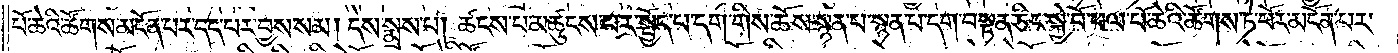པོ་ཆེའི་ཚོགས་མངོན་པར་དད་པར་བྱས་སམ། དེས་སྨྲས་པ། ཚངས་པ་མཚུངས་པར་སྤྱོད་པ་དག་གིས་ཆོས་སྙན་པ་སྙན་པ་དག་བསྟན་ཅིང་སྐྱེ་བོ་ཕལ་པོ་ཆེའི་ཚོགས་ཏེ་པོར་མངོན་པར་
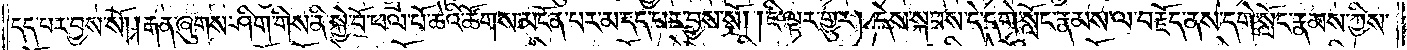དད་པར་བྱས་སོ། །རྒན་ཞུགས་ཤིག་གིས་ནི་སྐྱེ་བོ་ཕལ་པོ་ཆེའི་ཚོགས་མངོན་པར་མ་དད་པར་བྱས་སོ། །ཇི་ལྟར་གྱུར། དེས་སྐབས་དེ་དགེ་སློང་རྣམས་ལ་བརྗོད་ནས་དགེ་སློང་རྣམས་ཀྱིས་
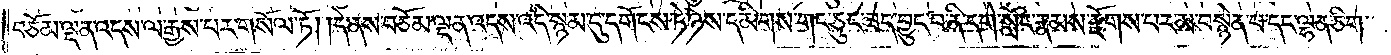བཅོམ་ལྡན་འདས་ལ་རྒྱས་པར་གསོལ་ཏོ། །དེ་ནས་བཅོམ་ལྡན་འདས་འདི་སྙམ་དུ་དགོངས་ཏེ་ཉེས་དམིགས་གང་ཅུང་ཟད་བྱུང་བ་ནི་དགེ་སློང་རྣམས་རྫོགས་པར་མ་བསྙེན་པ་དང་ལྷན་ཅིག་
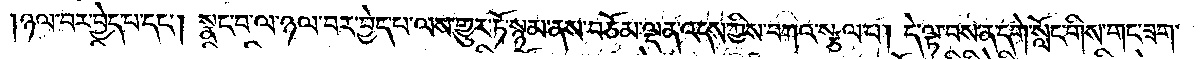ཉལ་བར་བྱེད་པ་དང༌། སྣང་བ་ལ་ཉལ་བར་བྱེད་པ་ལས་གྱུར་ཏོ་སྙམ་ནས་བཅོམ་ལྡན་འདས་ཀྱིས་བཀའ་སྩལ་པ། དེ་ལྟ་བས་ན་དགེ་སློང་གིས་གང་ཟག་
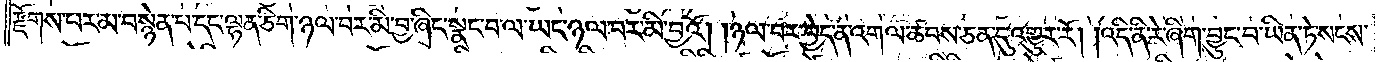རྫོགས་པར་མ་བསྙེན་པ་དང་ལྷན་ཅིག་ཉལ་བར་མི་བྱ་ཞིང་སྣང་བ་ལ་ཡང་ཉལ་བར་མི་བྱའོ། །ཉལ་བར་བྱེད་ན་འགལ་ཚབས་ཅན་དུ་འགྱུར་རོ། །འདི་ནི་རེ་ཞིག་བྱུང་བ་ཡིན་ཏེ་སངས་
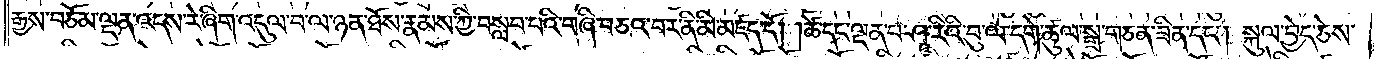རྒྱས་བཅོམ་ལྡན་འདས་རེ་ཞིག་འདུལ་བ་ལ་ཉན་ཐོས་རྣམས་ཀྱི་བསླབ་པའི་གཞི་བཅའ་བར་ནི་མི་མཛད་དོ། །ཚེ་དང་ལྡན་པ་ཤཱ་རིའི་བུ་ལ་དགེ་ཚུལ་སྒྲ་གཅན་ཟིན་དང༌། སྐུལ་བྱེད་ཅེས་
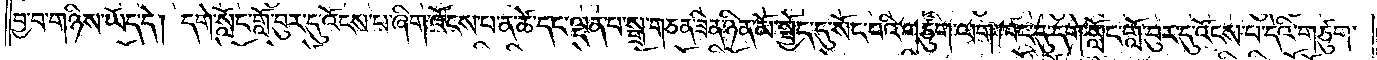བྱ་བ་གཉིས་ཡོད་དེ། དགེ་སློང་གློ་བུར་དུ་འོངས་པ་ཞིག་འོངས་པ་ན་ཚེ་དང་ལྡན་པ་སྒྲ་གཅན་ཟིན་ཉིན་མོ་སྤྱོད་དུ་སོང་བའི་གཙུག་ལག་ཁང་དུ་དགེ་སློང་གློ་བུར་དུ་འོངས་པ་དེའི་གཙུག་
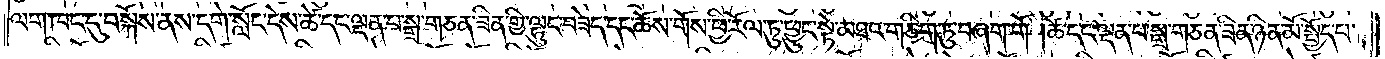ལག་ཁང་དུ་བསྐོས་ནས་དགེ་སློང་དེས་ཚེ་དང་ལྡན་པ་སྒྲ་གཅན་ཟིན་གྱི་ལྷུང་བཟེད་དང་ཆོས་གོས་ཕྱི་རོལ་ཏུ་ཕྱུང་སྟེ་མཐའ་གཅིག་ཏུ་བཞག་གོ །ཚེ་དང་ལྡན་པ་སྒྲ་གཅན་ཟིན་ཉིན་མོ་སྤྱོད་པ་
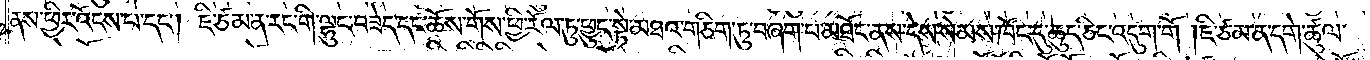ནས་ཕྱིར་འོངས་པ་དང༌། ཇི་ཙམ་ན་རང་གི་ལྷུང་བཟེད་དང་ཆོས་གོས་ཕྱི་རོལ་ཏུ་ཕྱུང་སྟེ་མཐའ་གཅིག་ཏུ་བཞག་པ་མཐོང་ནས་དེས་སེམས་ཁོང་དུ་ཆུད་ཅིང་འདུག་གོ །ཇི་ཙམ་ན་དགེ་ཚུལ་
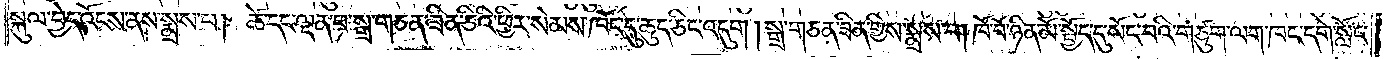སྐུལ་བྱེད་འོངས་ནས་སྨྲས་པ། ཚེ་དང་ལྡན་པ་སྒྲ་གཅན་ཟིན་ཅིའི་ཕྱིར་སེམས་ཁོང་དུ་ཆུད་ཅིང་འདུག །སྒྲ་གཅན་ཟིན་གྱིས་སྨྲས་པ། ཁོ་བོ་ཉིན་མོ་སྤྱོད་དུ་སོང་བའི་གཙུག་ལག་ཁང་དགེ་སློང་
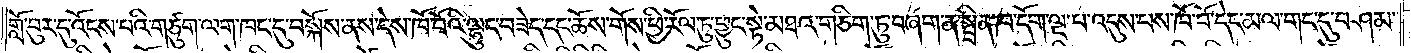གློ་བུར་དུ་འོངས་པའི་གཙུག་ལག་ཁང་དུ་བསྐོས་ནས་དེས་ཁོ་བོའི་ལྷུང་བཟེད་དང་ཆོས་གོས་ཕྱི་རོལ་ཏུ་ཕྱུང་སྟེ་མཐའ་གཅིག་ཏུ་བཞག་ན་སྤྲིན་ཁ་དོག་ལྔ་པ་འདུས་པས་ཁོ་བོ་དེང་མལ་གང་དུ་བཤམ་
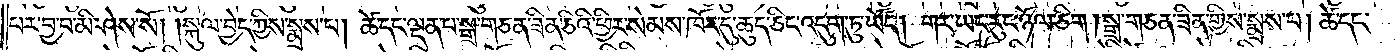པར་བྱ་བ་མི་ཤེས་སོ། །སྐུལ་བྱེད་ཀྱིས་སྨྲས་པ། ཚེ་དང་ལྡན་པ་སྒྲ་གཅན་ཟིན་ཅིའི་ཕྱིར་སེམས་ཁོང་དུ་ཆུད་ཅིང་འདུག་ཏུ་ཡོད། གར་ཡང་རུང་ཉོལ་ཅིག །སྒྲ་གཅན་ཟིན་གྱིས་སྨྲས་པ། ཚེ་དང་
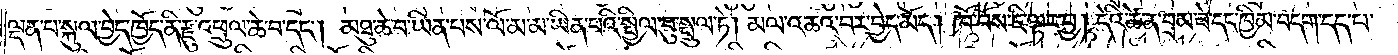ལྡན་པ་སྐུལ་བྱེད་ཁྱོད་ནི་རྫུ་འཕྲུལ་ཆེ་བ་དང༌། མཐུ་ཆེ་བ་ཡིན་པས་ལོ་མ་མ་ཡིན་པའི་སྤྱིལ་བུ་སྤྲུལ་ཏེ། མལ་འཆའ་བར་བྱེད་མོད། ཁོ་བོས་ཇི་ལྟར་བྱ། དེའི་ཚེ་ན་བྲམ་ཟེ་དང་ཁྱིམ་བདག་དད་པ་
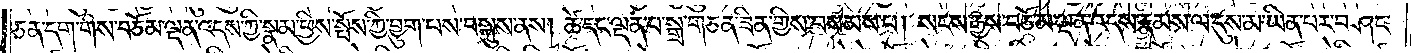ཅན་དག་གིས་བཅོམ་ལྡན་འདས་ཀྱི་སྣམ་ཕྱིས་སྤོས་ཀྱི་བྱུག་པས་བསྐུས་ནས། ཚེ་དང་ལྡན་པ་སྒྲ་གཅན་ཟིན་གྱིས་བསམས་པ། སངས་རྒྱས་བཅོམ་ལྡན་འདས་རྣམས་ལ་དུས་མ་ཡིན་པར་བཤང་
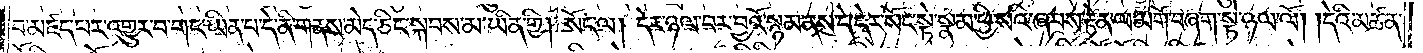བ་མཛད་པར་འགྱུར་བ་གང་ཡིན་པ་དེ་ནི་གནས་མེད་ཅིང་སྐབས་མ་ཡིན་གྱི། སོང་ལ། དེར་ཉལ་བར་བྱའོ་སྙམ་ནས་དེ་དེར་སོང་སྟེ་སྙམ་ཕྱི་སའི་ཞབས་རྟེན་ལ་མགོ་བཞག་སྟེ་ཉལ་ལོ། །དེའི་མཚན་
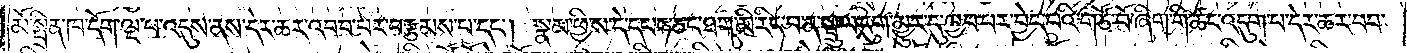མོ་སྤྲིན་ཁ་དོག་ལྔ་པ་འདུས་ནས་དེར་ཆར་འབབ་པར་བརྩམས་པ་དང༌། སྣམ་ཕྱི་ས་དེ་དང་ཧ་ཅང་ཐག་མི་རིང་བ་ན་སྦྲུལ་དུག་མྱུར་དུ་ཁྱབ་པར་བྱེད་པའི་གཙོ་བོ་ཞིག་གི་ཚང་འདུག་པ་དེར་ཆར་བབ་
